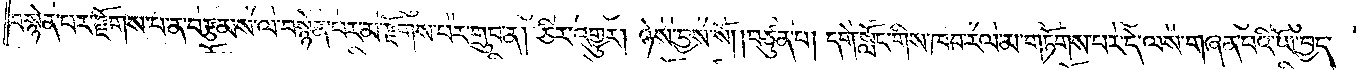བསྙེན་པར་རྫོགས་པ་ན་བརྩམས་ལ་བསྙེན་པར་མ་རྫོགས་པར་གྲུབ་ན། ཅིར་འགྱུར། ཉེས་བྱས་སོ། །བཙུན་པ། དགེ་སློང་གིས་ཁབ་རལ་མ་གཏོགས་པར་དེ་ལས་གཞན་པའི་ཡོ་བྱད་
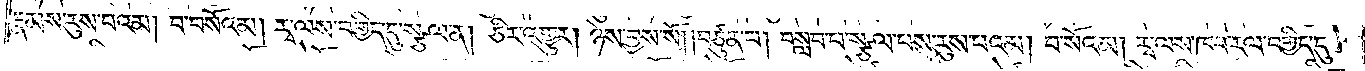རྣམས་རུས་པའམ། བ་བསོའམ། རྭ་ལས་བགྱིད་དུ་སྩལ་ན། ཅིར་འགྱུར། ཉེས་བྱས་སོ། །བཙུན་པ། བསླབ་པ་སྩལ་པས་རུས་པའམ། བ་སོའམ། རྭ་ལས་ཁབ་རལ་བགྱིད་དུ་
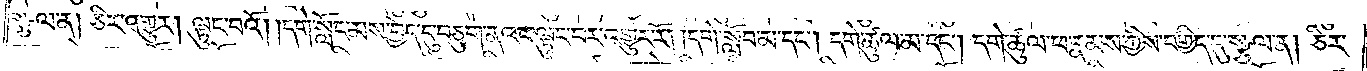སྩལ་ན། ཅིར་འགྱུར། ལྟུང་བའོ། །དགེ་སློང་མས་བྱེད་དུ་བཅུག་ནའང་ལྟུང་བར་འགྱུར་རོ། །དགེ་སློབ་མ་དང༌། དགེ་ཚུལ་མ་དང༌། དགེ་ཚུལ་ཕ་རྣམས་ཀྱིས་བགྱིད་དུ་སྩལ་ན། ཅིར་
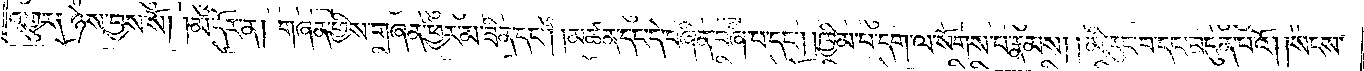འགྱུར༑ ཉེས་བྱས་སོ།    །མདོར་ན། གཞན་གྱིས་གཞན་ཕྱིར་མ་ཟིན་དང༌། །མཚན་དང་དེ་བཞིན་བཞི་པ་དང༌། །ཁྱིམ་པ་དག་ལ་སོགས་པ་རྣམས། །མི་རུང་བ་དང་བདུན་པའོ། །སངས་
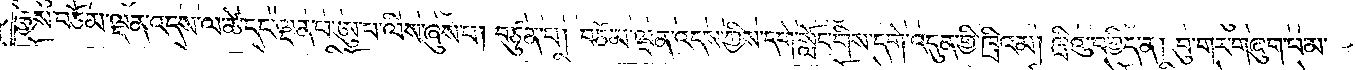རྒྱས་བཅོམ་ལྡན་འདས་ལ་ཚེ་དང་ལྡན་པ་ཨུ་པ་ལིས་ཞུས་པ། བཙུན་པ། བཅོམ་ལྡན་འདས་ཀྱིས་དགེ་སློང་གིས་དགེ་འདུན་གྱི་ཁྲིའམ། ཁྲིའུ་བགྱིད་ན། བུ་གར་གཞུག་པ་མ་
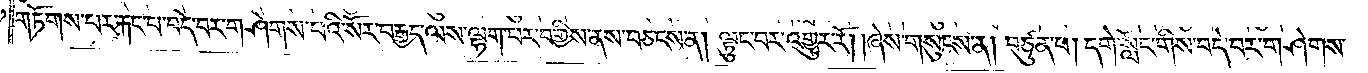གཏོགས་པར་རྐང་པ་བདེ་བར་གཤེགས་པའི་སོར་བརྒྱད་ལས་ལྷག་པར་བགྱིས་ནས་བཅངས་ན། ལྟུང་བར་འགྱུར་རོ། །ཞེས་གསུངས་ན། བཙུན་པ། དགེ་སློང་གིས་བདེ་བར་གཤེགས་
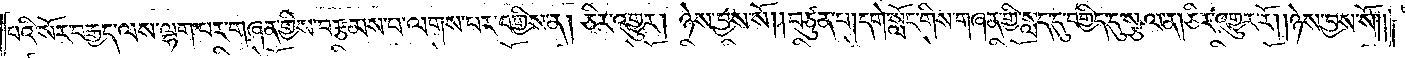པའི་སོར་བརྒྱད་ལས་ལྷག་པར་གཞན་གྱིས་བརྩམས་པ་ལགས་པར་བགྱིས་ན། ཅིར་འགྱུར། ཉེས་བྱས་སོ། །བཙུན་པ། དགེ་སློང་གིས་གཞན་གྱིས་སླད་དུ་བགྱིད་དུ་སྩལ་ན། ཅིར་འགྱུར་རོ། །ཉེས་བྱས་སོ། །
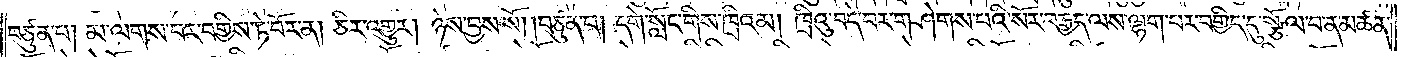བཙུན་པ། མ་ལགས་པར་བགྱིས་ཏེ་བོར་ན། ཅིར་འགྱུར། ཉེས་བྱས་སོ། །བཙུན་པ། དགེ་སློང་གིས་ཁྲིའམ། ཁྲིའུ་བདེ་བར་གཤེགས་པའི་སོར་བརྒྱད་ལས་ལྷག་པར་བགྱིད་དུ་སྩོལ་བ་ན་མཚན་
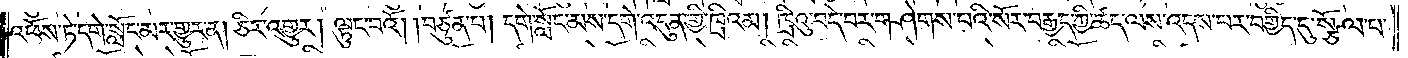འཕོས་ཏེ་དགེ་སློང་མར་གྱུར་ན། ཅིར་འགྱུར། ལྟུང་བའོ། །བཙུན་པ། དགེ་སློང་མས་དགེ་འདུན་གྱི་ཁྲིའམ། ཁྲིའུ་བདེ་བར་གཤེགས་པའི་སོར་བརྒྱད་ཀྱི་ཚད་ལས་འདས་པར་བགྱིད་དུ་སྩོལ་པ་
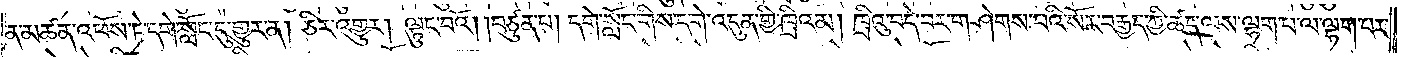ན་མཚན་འཕོས་ཏེ་དགེ་སློང་དུ་གྱུར་ན། ཅིར་འགྱུར། ལྟུང་བའོ། །བཙུན་པ། དགེ་སློང་གིས་དགེ་འདུན་གྱི་ཁྲིའམ། ཁྲིའུ་བདེ་བར་གཤེགས་པའི་སོར་བརྒྱད་ཀྱི་ཚད་ལས་ལྷག་པ་ལ་ལྷག་པར་
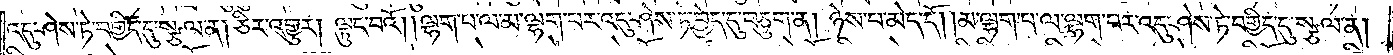འདུ་ཤེས་ཏེ་བགྱིད་དུ་སྩལ་ན། ཅིར་འགྱུར། ལྟུང་བའོ། །ལྷག་པ་ལ་མ་ལྷག་པར་འདུ་ཤེས་ཏེ་བྱེད་དུ་བཅུག་ན། ཉེས་པ་མེད་དོ། །མ་ལྷག་པ་ལ་ལྷག་པར་འདུ་ཤེས་ཏེ་བགྱིད་དུ་སྩལ་ན།
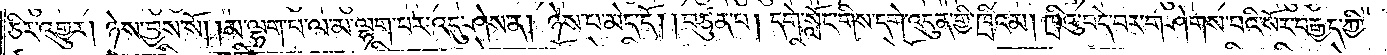ཅིར་འགྱུར། ཉེས་བྱས་སོ། །མ་ལྷག་པ་ལ་མ་ལྷག་པར་འདུ་ཤེས་ན། ཉེས་པ་མེད་དོ། །བཙུན་པ། དགེ་སློང་གིས་དགེ་འདུན་གྱི་ཁྲིའམ། ཁྲིའུ་བདེ་བར་གཤེགས་པའི་སོར་བརྒྱད་ཀྱི་
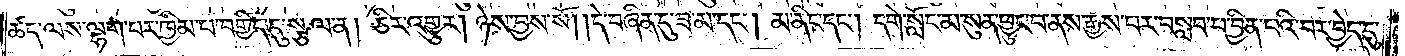ཚད་ལས་ལྷག་པར་ཁྱིམ་པ་བགྱིད་དུ་སྩལ་ན། ཅིར་འགྱུར། ཉེས་བྱས་སོ། །དེ་བཞིན་དུ་ཟ་མ་དང༌། མ་ནིང་དང༌། དགེ་སློང་མ་སུན་ཕྱུང་བ་ནས་རྒྱས་པར་བསླབ་པ་བྱིན་པའི་བར་བྱེད་དུ་
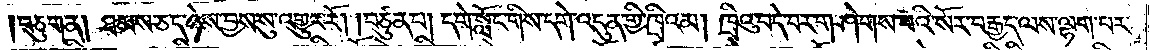།བཅུག་ན། ཅད་ཉེས་བྱས་སུ་འགྱུར་རོ། །བཙུན་པ། དགེ་སློང་གིས་དགེ་འདུན་གྱི་ཁྲིའམ། ཁྲིའུ་བདེ་བར་གཤེགས་པའི་སོར་བརྒྱད་ལས་ལྷག་པར་
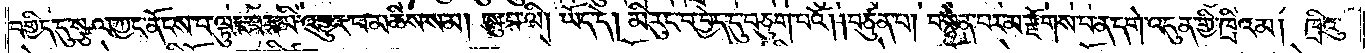བགྱིད་དུ་སྩལ་ཀྱང་ནོངས་པ་ལྟུང་བར་མི་འགྱུར་བ་མཆིས་སམ། ཨུ་པ་ལི། ཡོད་དེ། མི་རུང་བ་བྱེད་དུ་བཅུག་པའོ། །བཙུན་པ། བསྙེན་པར་མ་རྫོགས་པ་ན་དགེ་འདུན་གྱི་ཁྲིའམ། ཁྲིའུ་
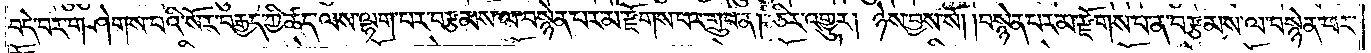བདེ་བར་གཤེགས་པའི་སོར་བརྒྱད་ཀྱི་ཚད་ལས་ལྷག་པར་བརྩམས་ལ་བསྙེན་པར་མ་རྫོགས་པར་གྲུབ་ན། ཅིར་འགྱུར། ཉེས་བྱས་སོ། །བསྙེན་པར་མ་རྫོགས་པ་ན་བརྩམས་ལ་བསྙེན་པར་
